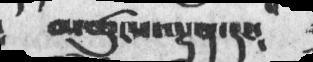མཚུངས་ལྡན་དང༴
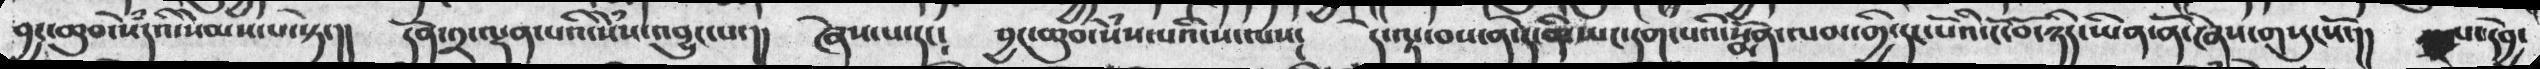བྱང་ཆུབ་སེཾདའི་སེམས་པ་སྟེ་།།  དོན་༢་ལྡན་པའི་སེྃས་འབྱུང་པ་།།  ཞེས་པ་དང༴  བྱང་ཆུབ་སེཾས་པའི་ས་ལས་  དེ་ལྟ་བས་ན་དེ་ནི་ཡང་དག་པའི་སྨོན་ལམ་གྱི་དང་པོའི་ངོ་བོ་ཉིད་ཡིན་ནོ་ཞེས་གསུངསོ་།།  ༢པ་དབྱེ་
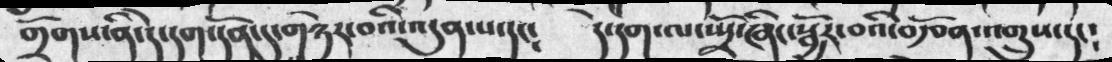གྲོགས་ནི་དེ་དག་དོན་དུ་གཉེར་བའི་འདུན་པ་དང༴   དེ་དག་ལ་ཡྲོ་ཞིང་སྦྱོར་བའི་བརྩོན་འགྲུས་དང།
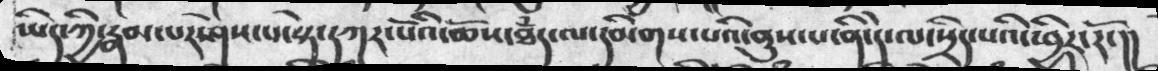ཡིད་ཀྱི་རྣམ་པར་ཤེས་པ་སྟེ་དཀར་པོའི་ཆོས་ཐཾད་ལ་དམིགས་པའི་ནུས་པ་ནི་དེ་ལ་སྲིད་པའི་ཕྱིར་རོ་།།
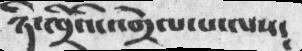ཉི་ཁྲིའི་འགྲེལ་པ་ལས༴
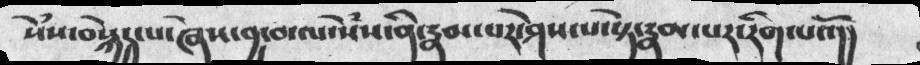སེཾས་བསྐྱེད་པ་ཞེས་བྱ་བ་ལ་སེཾས་ནི་རྣམ་པར་ཤེས་པ་སྟེ་རྣམ་པར་རིག་པའོ།།
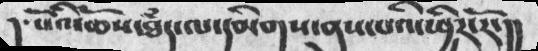། ་པོའི་ཆོས་ཐཾད་ལ་དམིགས་ནུས་པའི་ཕྱིར་རོ་།།
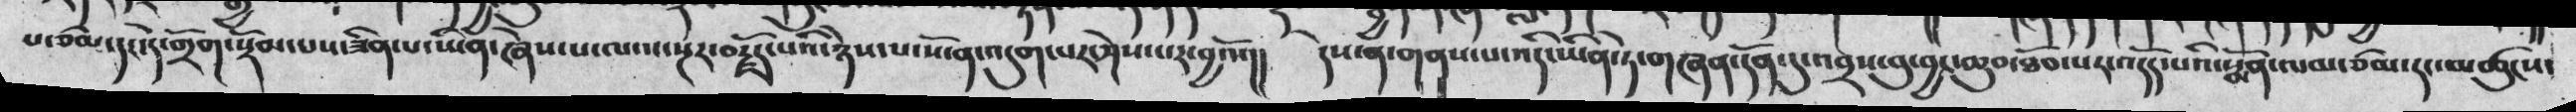པ་ཙམ་དང་དེ་གྲོག་སྡོམ་པས་ཟིན་པ་ཡིན་ཞེས་པ་ཁལ་སྔར་བརྗོད་པའི་ཉེས་པ་སོ་ན་འདུག་པར་ཤེས་པར་བྱའོ་།།  དེས་ན་གནས་པ་འདི་ཡིན་ཏེ་གཞན་དོན་དུ་འབྲས་བུ་བྱང་ཆུབ་ཐོབ་པར་འདོད་པའི་སྨོན་ལམ་དང་མཚུངས་
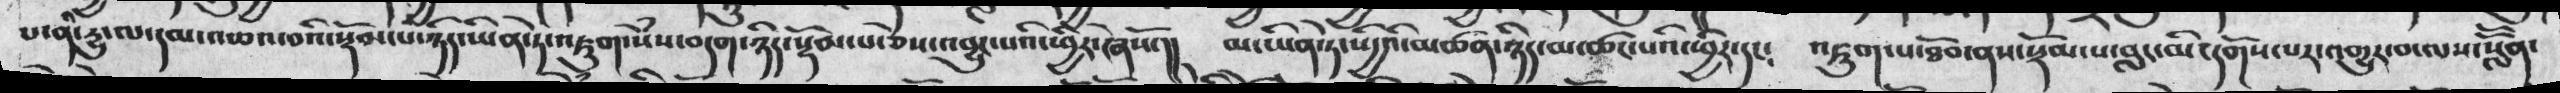པ་ནི་རྡུ་ལ་དན་འཆའ་བའི་སྡོམ་པ་ཉིད་ཡིན་ཏེ་འཇུག་སེཾས་བདག་ཉིད་སྡོམ་པ་ཅེས་འབྱུང་པའི་ཕྱིར་ཞེསོ་།། མ་ཡིན་དེ་སདྱིའི་མཚན་ཉིད་མ་ཚང་པའི་ཕྱིར་དང༴  འཇུག་པ་ཐོབ་ནས་སྡོམ་པ་བླང་མི་དགོས་པར་འགྱུར་བ་ལས་སློོན་
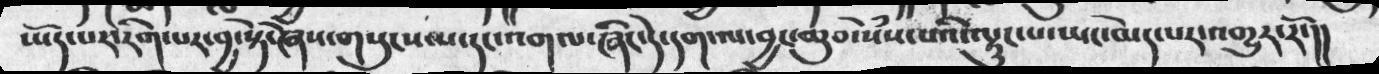ཡོད་པར་རིག་པར་བྱ་སྟེ་ཞེས་གསུངས་པ་དང་འགལ་ཞིང་དདེ་དག་ལ་བྱང་ཆུབ་སེཾས་༷པའི་ལྟུང་པ་ཡང་མེད་པར་འགྱུར་རོ་།།
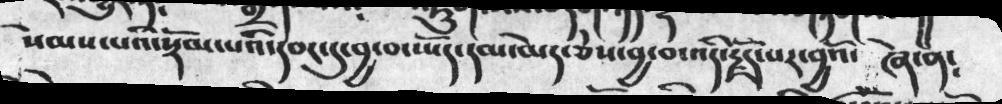སེམས་པའི་སྡོམ་པའི་དབང་དུ་བྱ་བ་ཡོད་དམ་མེད་ཅེས་བྱ་བ་འདི་རྗོད་པར་བྱའོ་ ཞེ་ན༴
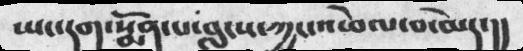ཡང་དག་སྨོན་པ་བླངས་ཀྱང་འཕེལ་བ་མེད་།།
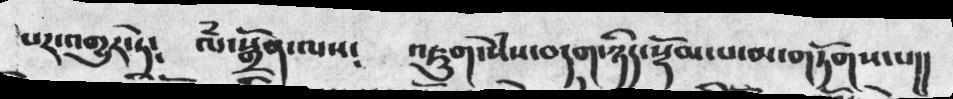པར་འགྱུར་ཏེ༴  ལཾ་སྒྲོན་ལས༴  འཇུག་སེཾས་བདག་ཉིད་སྡོམ་པ་མ་གཏོགས་པ།།
